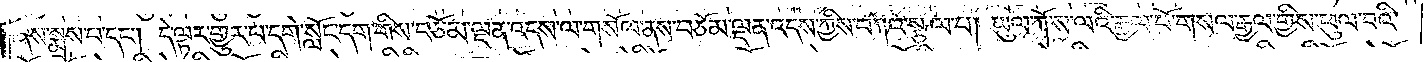ཞེས་སྨྲས་པ་དང༌། དེ་ལྟར་གྱུར་པ་དགེ་སློང་དག་གིས་བཅོམ་ལྡན་འདས་ལ་གསོལ་ནས་བཅོམ་ལྡན་འདས་ཀྱིས་བཀའ་སྩལ་པ། ཡུལ་ཀོ་ས་ལའི་རྒྱལ་པོ་གསལ་རྒྱལ་གྱིས་ཕུལ་བའི་
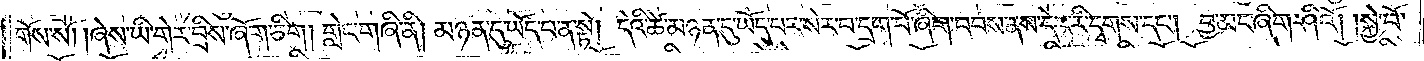གོས་སོ། །ཞེས་ཡི་གེར་བྲིས་ཞོག་ཅིག །གླེང་གཞི་ནི། མཉན་དུ་ཡོད་པ་ན་སྟེ། དེའི་ཚེ་མཉན་དུ་ཡོད་པར་སེར་བ་དྲག་པོ་ཞིག་བབས་ནས་དེར་རི་དྭགས་དང༌། བྱ་མང་ཞིག་ཤིའོ། །སྐྱེ་བོ་
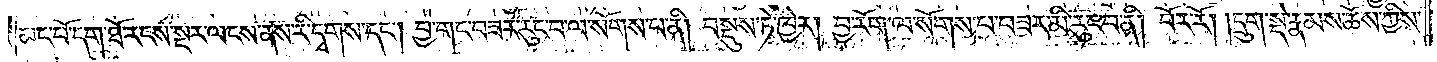མང་པོ་དག་ཐོ་རངས་སྔར་ལངས་ནས་རི་དྭགས་དང༌། བྱ་གང་བཟར་རུང་བ་ལ་སོགས་པ་ནི། བསྡུས་ཏེ་ཁྱེར། བྱ་རོག་ལ་སོགས་པ་བཟར་མི་རུང་བ་ནི། བོར་རོ། །དྲུག་སྡེ་རྣམས་ཆོས་ཀྱིས་
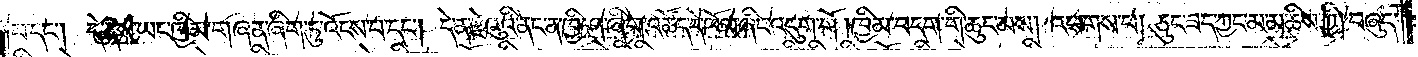པ་དང༌། དེ་ནས་ཡང་ཁྱིམ་གཞན་ཞིག་ཏུ་འོངས་པ་དང༌། དེ་ན་རྫེའུའི་ནང་ན་ཁྱི་ཤ་ཞིག་འཚོད་དེ་ཁོལ་ཞིང་འདུག་གོ །ཁྱིམ་བདག་གི་ཆུང་མས། འཕགས་པ། ཅུང་ཟད་ཀྱང་མ་མཆིས་ཀྱི། བཞུད་
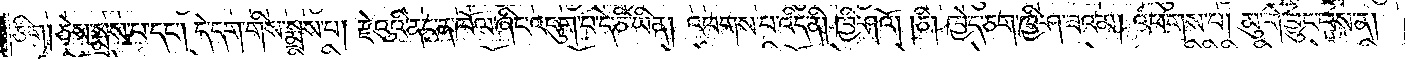ཅིག །ཅེས་སྨྲས་པ་དང༌། དེ་དག་གིས་སྨྲས་པ། རྫེའུའི་ནང་ན་ཁོལ་ཞིང་འདུག་པ་དེ་ཅི་ཡིན། འཕགས་པ་འདི་ནི། ཁྱི་ཤའོ། །ཅི། ཁྱེད་ཅག་ཁྱི་ཤ་ཟའམ། འཕགས་པ། མུ་གེ་བྱུང་བས་ན།
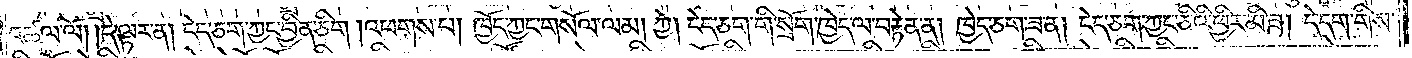འཚལ་ལོ། །དེ་ལྟར་ན། ངེད་ཅག་ཀྱང་བྱིན་ཅིག །འཕགས་པ། ཁྱོད་ཀྱང་གསོལ་ལམ། ཀྱེ། ངེད་ཅག་གི་སྲོག་ཁྱེད་ལ་བརྟེན་ན། ཁྱེད་ཅག་ཟ་ན། ངེད་ཅག་ཀྱང་ཅིའི་ཕྱིར་མི་ཟ། དེ་དག་གིས་
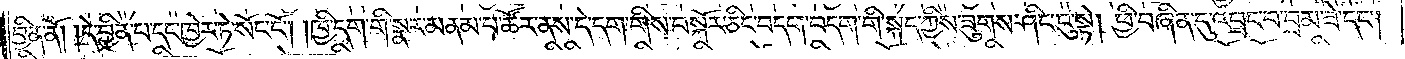བྱིན་ནོ། །དེ་བྱིན་པ་དང་ཁྱེར་ཏེ་སོང་ངོ༌། །ཁྱི་དག་གི་སྣར་མནམ་པ་ཚོར་ནས་དེ་དག་གིས་བསྐོར་ཅིང་བདག་བདག་གི་སྐད་ཀྱིས་ཟུགས་ཤིང་ངུ་སྟེ། ཕྱི་བཞིན་དུ་འབྲང་བ་བྲམ་ཟེ་དང༌།
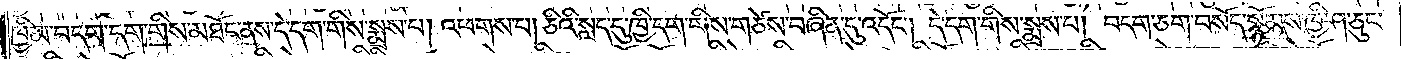ཁྱིམ་བདག་དག་གིས་མཐོང་ནས་དེ་དག་གིས་སྨྲས་པ། འཕགས་པ། ཅིའི་སླད་དུ་ཁྱི་དག་གིས་གཙེས་བཞིན་དུ་འདོང༌། དེ་དག་གིས་སྨྲས་པ། བདག་ཅག་བསོད་སྙོམས་ཁྱི་ཤ་ཅུང་
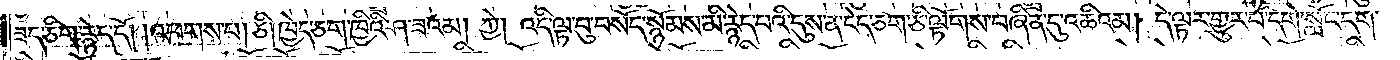ཟད་ཅིག་རྙེད་དོ། །འཕགས་པ། ཅི། ཁྱེད་ཅག་ཁྱིའི་ཤ་ཟའམ། ཀྱེ། འདི་ལྟ་བུ་བསོད་སྙོམས་མི་རྙེད་པའི་དུས་ན་ངེད་ཅག་ཅི་ལྟོགས་བཞིན་དུ་འཆིའམ། དེ་ལྟར་གྱུར་པ་དགེ་སློང་དག་
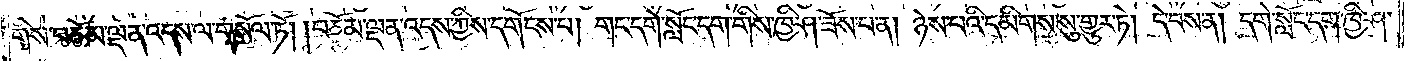གིས་བཅོམ་ལྡན་འདས་ལ་གསོལ་ཏོ། །བཅོམ་ལྡན་འདས་ཀྱིས་དགོངས་པ། གང་དགེ་སློང་དག་གིས་ཁྱི་ཤ་ཟོས་པ་ན། ཉེས་པའི་དམིགས་སུ་གྱུར་ཏེ། དེ་བས་ན། དགེ་སློང་དག་ཁྱི་ཤ་
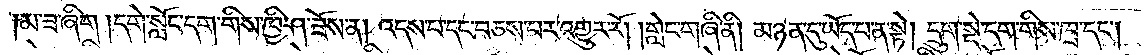མ་ཟ་ཞིག །དགེ་སློང་དག་གིས་ཁྱི་ཤ་ཟོས་ན། འདས་པ་དང་བཅས་པར་འགྱུར་རོ། །གླེང་གཞི་ནི། མཉན་དུ་ཡོད་པ་ན་སྟེ། དྲུག་སྡེ་དག་གིས་ཁྲ་དང༌།
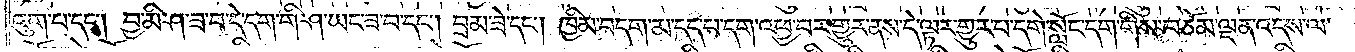འུག་པ་དང༌། བྱ་མི་ཤ་ཟ་བ་དེ་དག་གི་ཤ་ཡང་ཟ་བ་དང༌། བྲམ་ཟེ་དང༌། ཁྱིམ་བདག་མ་དད་པ་དག་འཕྱ་བར་གྱུར་ནས་དེ་ལྟར་གྱུར་པ་དགེ་སློང་དག་གིས་བཅོམ་ལྡན་འདས་ལ་
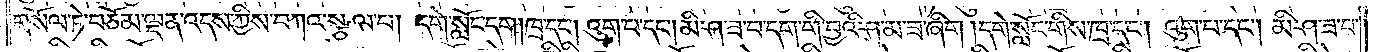གསོལ་ཏེ་བཅོམ་ལྡན་འདས་ཀྱིས་བཀའ་སྩལ་པ། དགེ་སློང་དག །ཁྲ་དང༌། འུག་པ་དང༌། མི་ཤ་ཟ་བ་དག་གི་བྱའི་ཤ་མ་ཟ་ཞིག །དགེ་སློང་གིས་ཁྲ་དང༌། འུག་པ་དང༌། མི་ཤ་ཟ་བ་
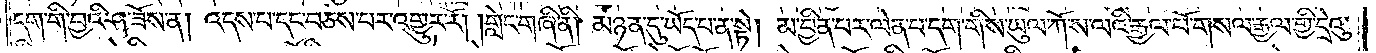དག་གི་བྱའི་ཤ་ཟོས་ན། འདས་པ་དང་བཅས་པར་འགྱུར་རོ། །གླེང་གཞི་ནི། མཉན་དུ་ཡོད་པ་ན་སྟེ། མ་བྱིན་པར་ལེན་པ་དག་གིས་ཡུལ་ཀོ་ས་ལའི་རྒྱལ་པོ་གསལ་རྒྱལ་གྱི་དྲེའུ་
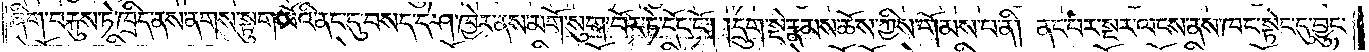ཞིག་བརྐུས་ཏེ་ཁྲིད་ནས་ནགས་སྟུག་པོའི་ནང་དུ་བསད་དེ་ཤ་ཁྱེར་ནས་མགོ་སུག་བོར་ཏེ་དོང་ངོ༌། །དྲུག་སྡེ་རྣམས་ཆོས་ཀྱིས་གོམས་པ་ནི། ནང་པར་སྔར་ལངས་ནས་ཁང་སྟེང་དུ་བྱུང་
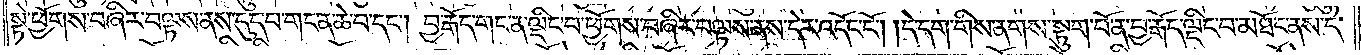སྟེ་ཕྱོགས་བཞིར་བལྟས་ནས་དུད་པ་གང་ན་ཆེ་བ་དང༌། བྱ་རྒོད་གང་ན་ལྡིང་བ་ཕྱོགས་བཞིར་བལྟས་ནས་དེར་འདོང་ངོ༌། །དེ་དག་གིས་ནགས་སྟུག་པོ་ན་བྱ་རྒོད་ལྡིང་བ་མཐོང་ནས་དེ་
